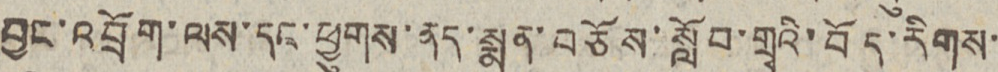བྱང་འབྲོག་ལས་དང་ཕྱུགས་ནད་སྨན་བཅོས་སློབ་གྲྭའི་བོད་རིགས་
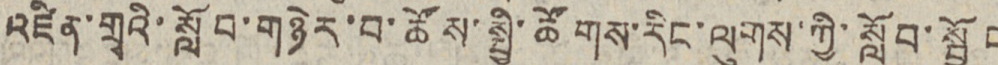འཛིན་གྲྭའི་སློབ་གཉེར་བ་ཚོས་སྤྱི་ཚོགས་རིང་ལུགས་ཀྱི་སློབ་སྦྱོང
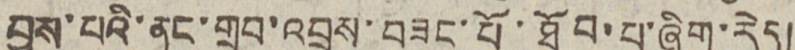བྱས་པའི་ནང་གྲུབ་འབྲས་བཟང་པོ་ཐོབ་པ་ཞིག་རེད།
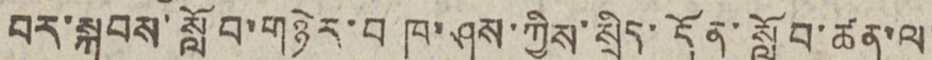བར་སྐབས་སློབ་གཉེར་བ ཁ་ཤས་ཀྱིས་སྲིད་དོན་སློབ་ཚན་ལ་
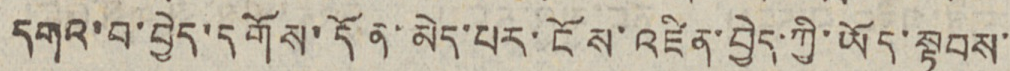དགའ་བ་བྱེད་དགོས་དོན་མེད་པར་ངོས་འཛིན་བྱེད་ཀྱི་ཡོད་སྟབས་
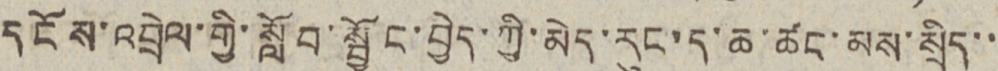དངོས་འབྲེལ་གྱི་སློབ་སྦྱོང་བྱེད་ཀྱི་མེད་རུང་ད་ཆ་ཚང་མས་སྲིད་་
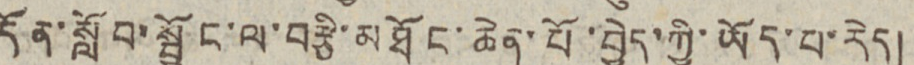དོན་སློབ་སྦྱོང་ལ་བརྟེན་མཐོང་ཆེན་པོ་བྱེད་ཀྱི་ཡོད་པ་རེད།
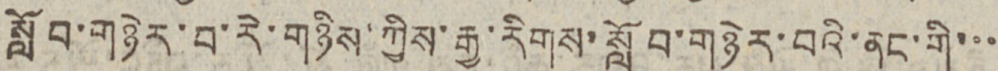སློབ་གཉེར་བ་རེ་གཉིས་ཀྱིས་རྒྱ་རིགས་སློབ་གཉེར་བའི་ནང་གི་་་
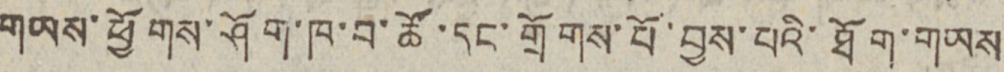གཡས་ཕྱོགས་ཤོག་ཁག་བ་ཚོ་དང་གྲོགས་པོ་བྱས་པའི་ཐོག་གཡས
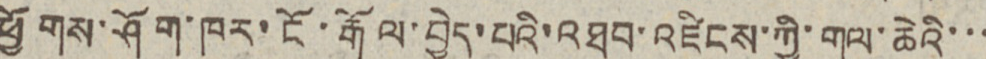ཕྱོགས་ཤོག་ཁར་ངོ་རྒོལ་བྱེད་པའི་འཐབ་འཛིངས་ཀྱི་གལ་ཆེའི་་་
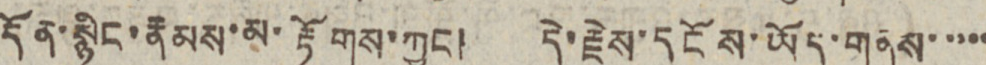དོན་སྙིང་རྣམས་མ་རྟོགས་ཀྱང། དེ་རྗེས་དངོས་ཡོད་གནས་་་་་
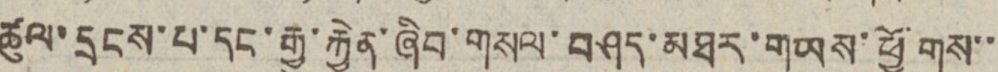ཚུལ་དྲངས་པ་དང་རྒྱུ་རྐྱེན་ཞིབ་གསལ་བཤད་མཐར་གཡས་ཕྱོགས་་
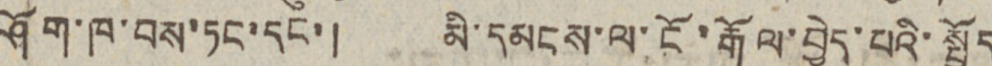ཤོག་ཁ་བས་ཏང་དང་། མི་དམངས་ལ་ངོ་རྒོལ་བྱེད་པའི་སྤྱོད
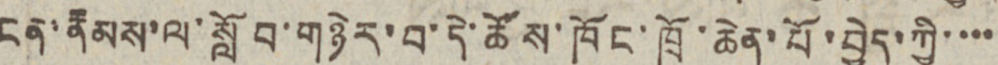ངན་རྣམས་ལ་སློབ་གཉེར་བ་དེ་ཚོས་ཁོང་ཁྲོ་ཆེན་པོ་བྱེད་ཀྱི་་་་
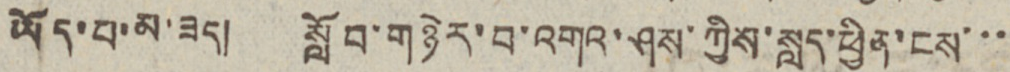ཡོད་པ་མ་ཟད། སློབ་གཉེར་བ་འགའ་ཤས་ཀྱིས་སླད་ཕྱིན་ངས་་་
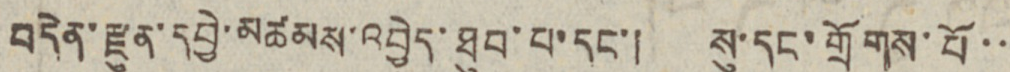བདེན་རྫུན་དབྱེ་མཚམས་འབྱེད་ཐུབ་པ་དང་། སུ་དང་གྲོགས་པོ་་
